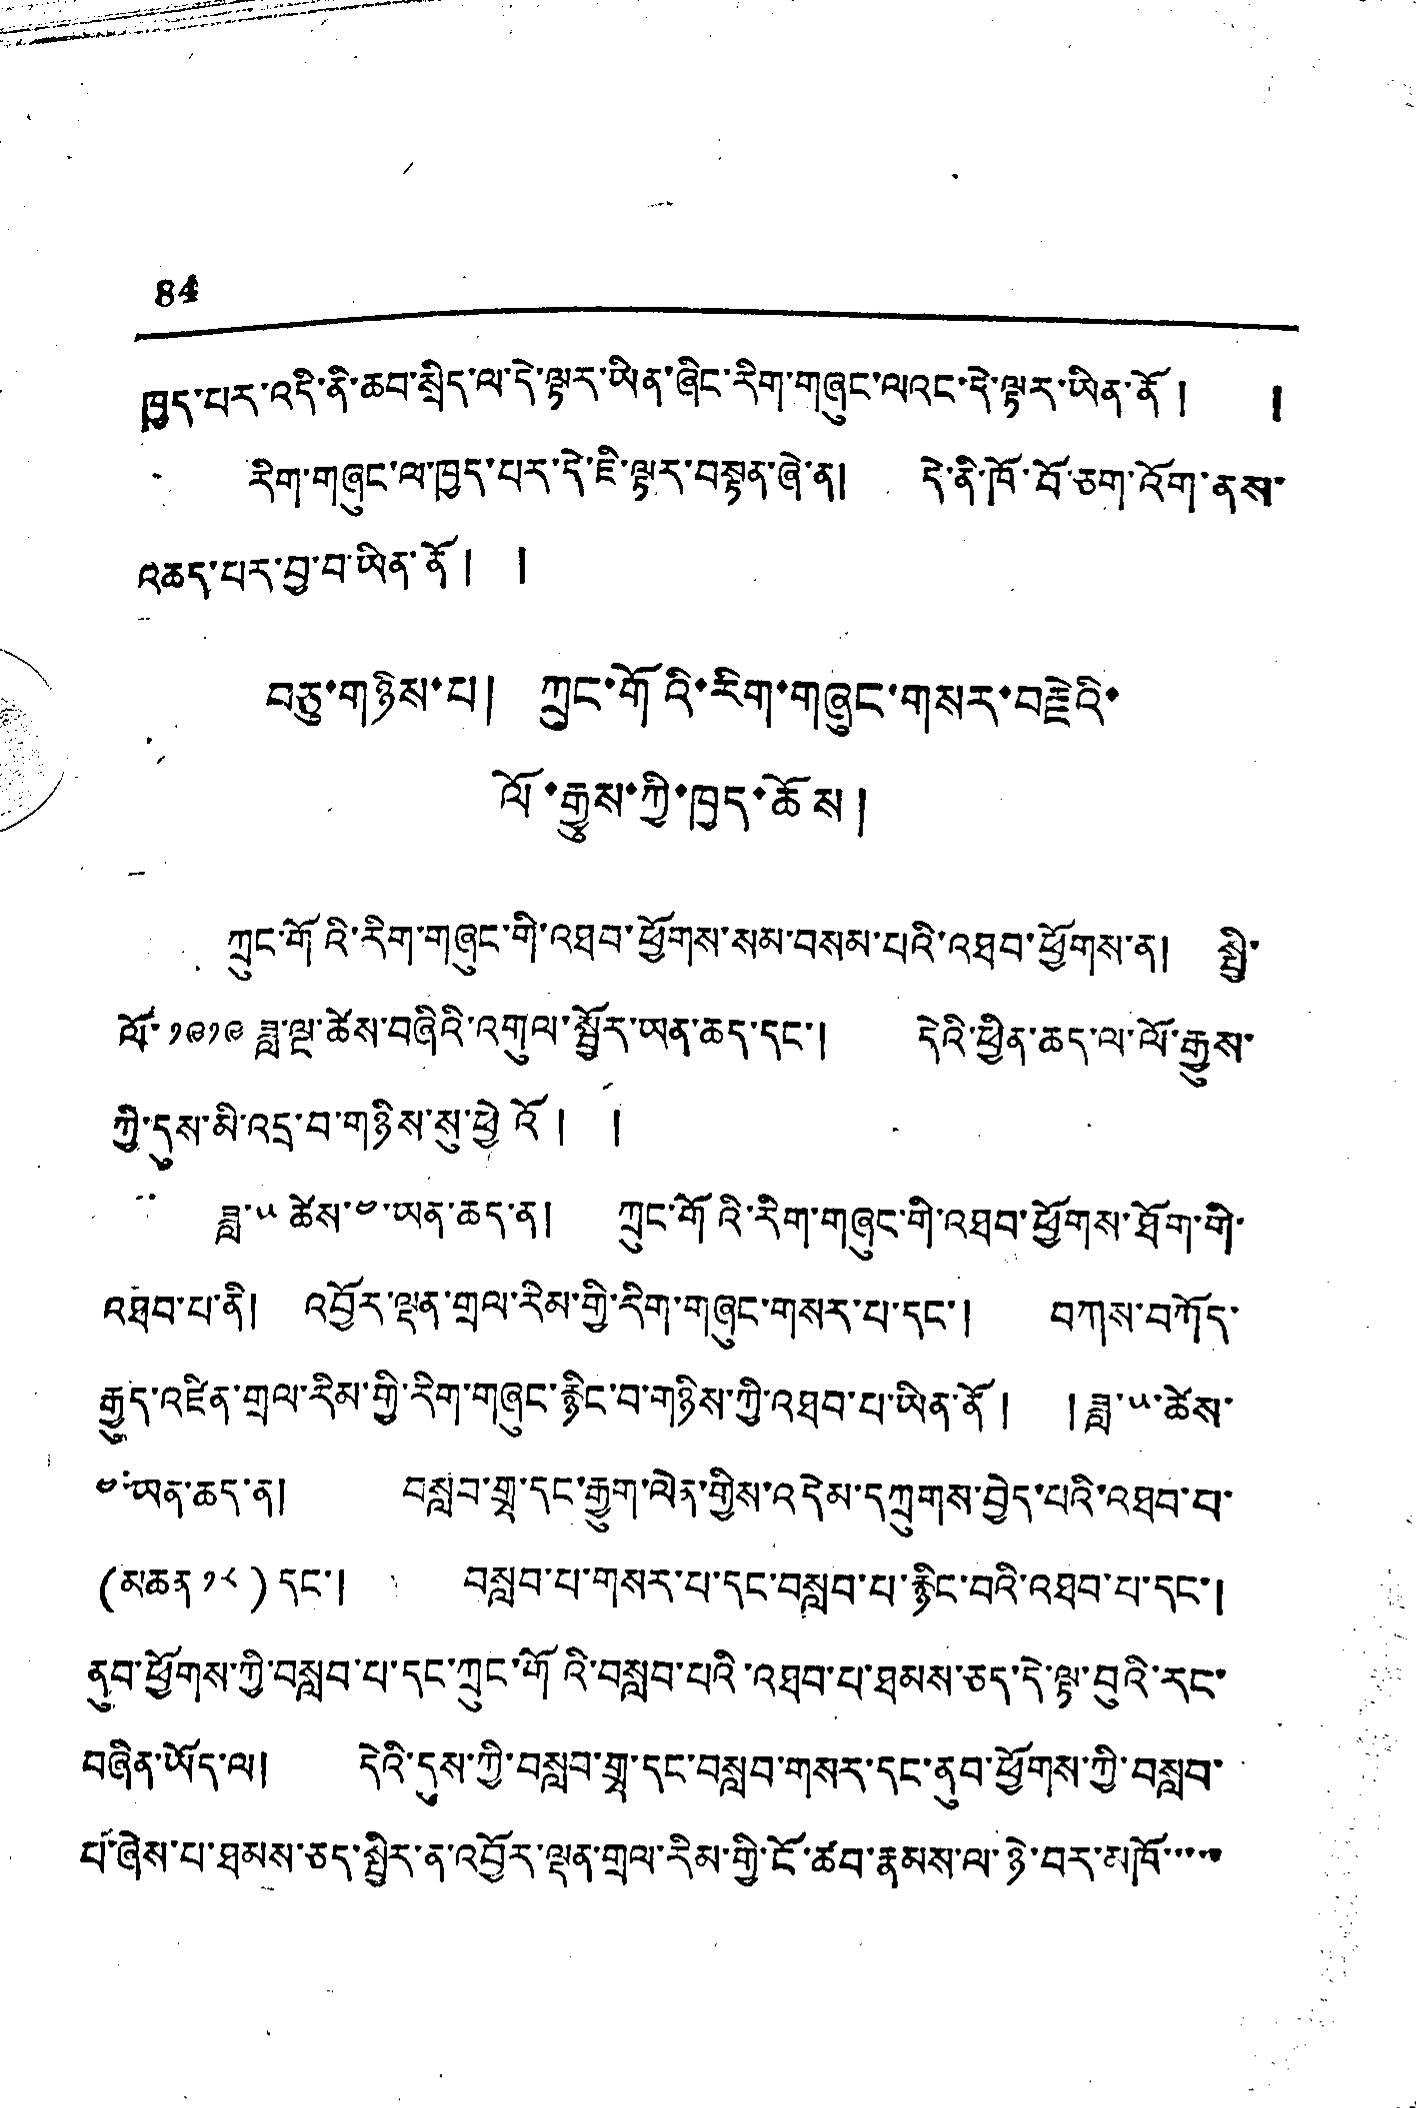84
ཁད་པར་འདི་ནི་ཆབ་སྲིད་ལ་དེ་ལྟར་ཡིན་ཞིང་རིག་གཞུང་ལའང་དེ་ལྟར་ཡིན་ནོ ། །
རིག་གཞུང་ལ་ཁྱད་པར་དེ་ཇི་ལྟར་བསྟུན་ཞེ་ན། དེ་ནི་ཁོ་བོ་ཅག་འོག་ནས་
འཆད་པར་བྱ་བ་ཡིན་ནོ། །
བཅུ་གཉིས་པ། ཀྲུང་གོའི་རིག་གཞུང་གསར་བརྗེའི་
ལོ་རྒྱུས་ཀྱི་ཁྱད་ཆོས།
ཀྲུང་གོའི་རིག་གཞུང་གི་འཐབ་ཕྱོགས་སམ་བསམ་པའི་འཐབ་ཕྱོགས་ན། སྤྱི་
ལོ་ ༡༩༡༩ ཟླ་ལྔ་ཚེས་བཞིའི་འགུལ་སྦྱོར་ཡན་ཆད་དང་། དེའི་ཕྱིན་ཆད་ལ་ལོ་རྒྱུས་
ཀྱི་དུས་མི་འདྲ་བ་གཉིས་སུ་ཕྱེ འོ ། །
ཟླ་༥ ཚེས་༤་ཡན་ཆད་ན། ཀྲུང་གོའི་རིག་གཞུང་གི་འཐབ་ཕྱོགས་ཐོག་གི་
འཐབ་པ་ནི། འབྱོར་ལྡན་གྲལ་རིམ་གྱི་རིག་གཞུང་གསར་པ་དང་། བཀས་བཀོད་
རྒྱུད་འཛིན་གྲལ་རིམ་གྱི་རིག་གཞུང་རྙིང་བ་གཉིས་ཀྱི་འཐབ་པ་ཡིན་ནོ། །ཟླ་༥་ཚེས་
༤་ཡན་ཆད་ན། བསླབ་གྲྭ་དང་རྒྱུག་ལེན་གྱིས་འདེམ་དཀྲུགས་བྱེད་པའི་འཐབ་བ་
(མཆན ༡༨) དང་། བསླབ་པ་གསར་པ་དང་བསླབ་པ་རྙིང་བའི་འཐབ་པ་དང་།
ནུབ་ཕྱོགས་ཀྱི་བསླབ་པ་དང་ཀྲུང་གོའི་བསླབ་པའི་འཐབ་པ་ཐམས་ཅད་དེ་ལྟ་བུའི་རང་
བཞིན་ཡོད་ལ། དེའི་དུས་ཀྱི་བསླབ་གྲྭ་དང་བསླབ་གསར་དང་ནུབ་ཕྱོགས་ཀྱི་བསླབ་
པ་ཞེས་པ་ཐམས་ཅད་སྤྱིར་ན་འབྱོར་ལྡན་གྲལ་རིམ་གྱི་ངོ་ཚབ་རྣམས་ལ་ཉེ་བར་མཁོ་་་་་
